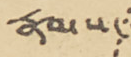རྣམས་
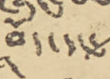བོད་དང་
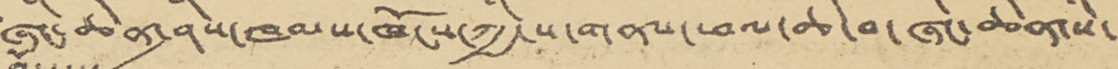ཞིང་ཆེན་ཤིས་ཁམས་ཁོངས་ཀྱི་ས་གནས་ཕལ་ཆེ་བ་ཞིང་ཆེན་སི་
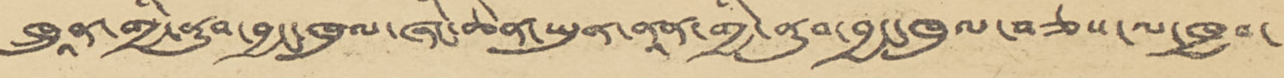ཁྲུནཱ་གྱི་ནུབ་བྱང་ཁུལ་ཞིང་ཆེན་ཡུན་ནཱན་གྱི་ནུབ་བྱང་ཁུལ་བཅས་ལ་ཁྱབ་
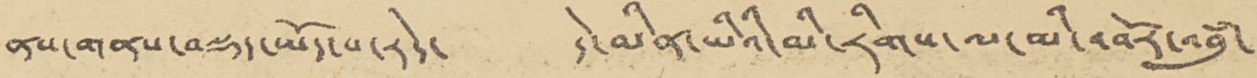ནས་གནས་བསྡད་ཡོད་པ་རེད་ དེ་མིན་ཡིའི་མི་རིགས་ལ་མི་འབོར་འབུཾ་
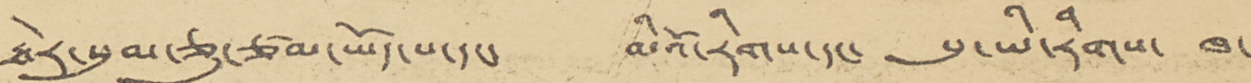ཐེར་སུམ་ཅུ་ཙམ་ཡོད་པ་དང་ མིའོ་རིགས་དང་ སུ་ཡི་རིགས་ ཁ་
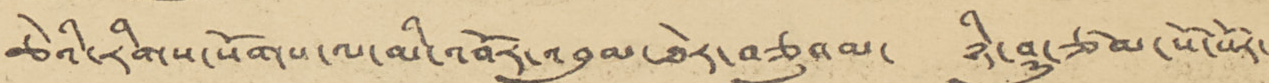ཆེའི་རིགས་སོགས་ལ་མི་འབོར་འབུམ་ཐེར་བཅུའམ་ ཉི་ཤུ་ཙམ་སོ་སོར་
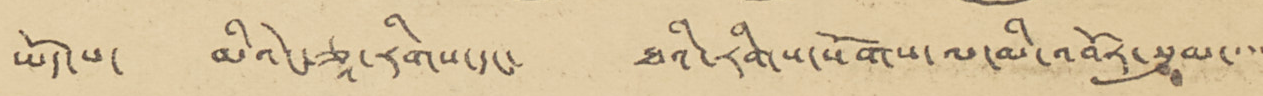ཡོད་པ་ མིའེང་ཅཱ་རིགས་དང་ ཐའི་རིགས་སོགས་ལ་མི་འབོར་སུམ་་་་
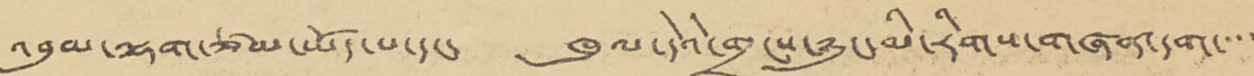འབུམ་ལྷག་ཙམ་ཡོད་པ་དང་ ཁུལ་དེའི་གྲངས་ཉུང་མི་རིགས་གཞན་དག་་་་
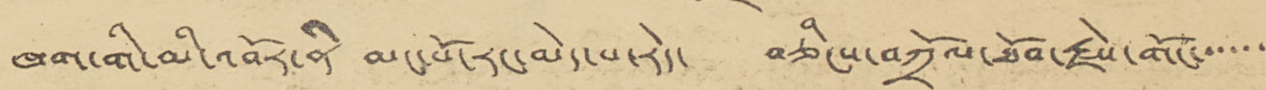ཁག་གི་མི་འབོར་ནི་ མང་པོ་རང་མེད་པ་རེད་ བཅིངས་བཀྲོལ་ཐོབ་རྗེས་གོང་་་་་་
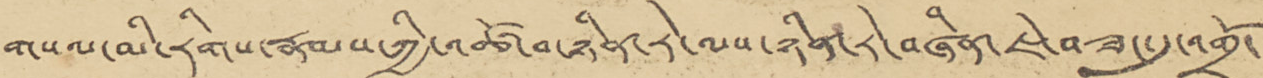གསལ་མི་རིགས་རྣམས་ཀྱི་འཚོ་བ་ཉིན་རེ་ལས་ཉིན་རེ་བཞིན་ཇེ་བཟང་དུ་འགྲོ་
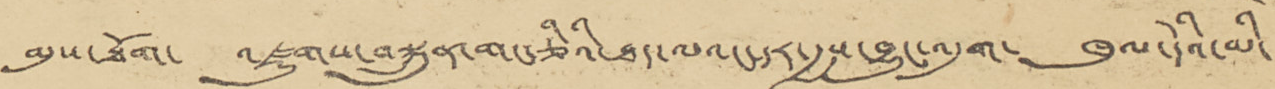མུས་ཐོག་ འཛུགས་བསྐྲུན་གང་ཅིའི་ཐད་ལའང་དར་རྒྱས་བྱུང་འདུག་ ཁུལ་དེའི་མི་
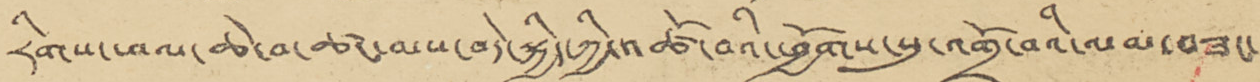རིགས་ཕལ་ཆེ་བ་ཚང་མས་བདེ་སྐྱིད་ཀྱི་འཚོ་བའི་ཕྱོགས་སུ་འགྲོ་བའི་ལམ་བཟང་
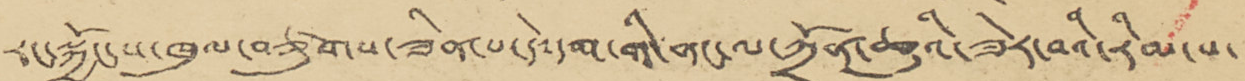རང་སྐྱོང་ས་ཁུལ་བཙུགས་ཟིན་པ་དེ་དག་གི་ནང་ལ་ཀྲོན་ཆུའི་ཟེར་བའི་རིམ་པ་
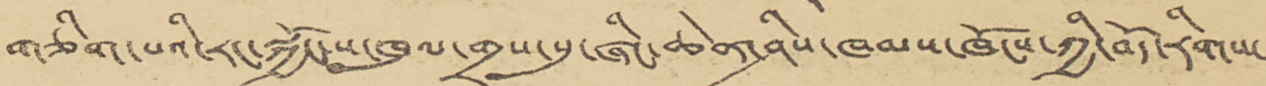གཅིག་པའི་རང་སྐྱོང་ས་ཁུལ་གྲས་སུ་ཞིང་ཆེན་ཤིས་ཁམས་ཁོངས་ཀྱི་བོད་རིགས་
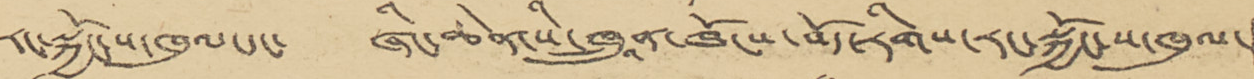རང་སྐྱོང་ས་ཁུལ་དང་ ཞིང་ཆེན་སི་ཁྲུའན་ཁོངས་བོད་རིགས་རང་སྐྱོང་ས་ཁུལ་།
